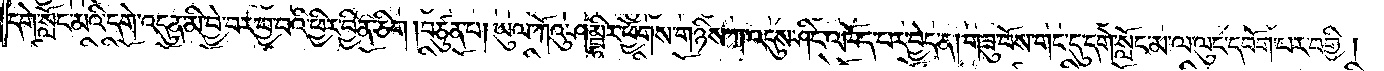དགེ་སློང་མའི་དགེ་འདུན་མི་བྱེ་བར་བྱ་བའི་ཕྱིར་བྱིན་ཅིག །བཙུན་པ། ཡུལ་ཀོའུ་ཤམྦྷིར་ཕྱོགས་གཉིས་ཀ་འདུས་ཤིང་འཁོད་པར་བྱེད་ན། གཟུ་བོས་གང་དུ་དགེ་སློང་མ་ལ་ལུང་དབོག་པར་བགྱི།
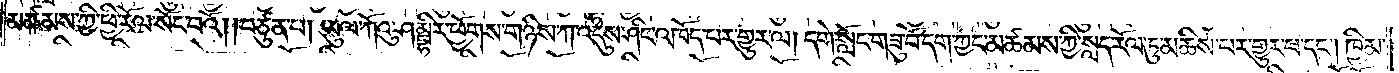མཚམས་ཀྱི་ཕྱི་རོལ་སོང་བའོ། །བཙུན་པ། ཡུལ་ཀོའུ་ཤམྦྷིར་ཕྱོགས་གཉིས་ཀ་འདུས་ཤིང་འཁོད་པར་གྱུར་ལ། དགེ་སློང་གཟུ་བོ་དག་ཀྱང་མཚམས་ཀྱི་སླད་རོལ་ཏུ་མཆིས་པར་གྱུར་བ་དང༌། ཁྱིམ་
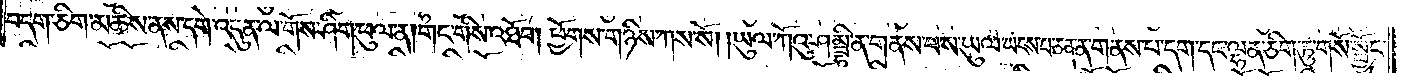བདག་ཅིག་མཆིས་ནས་དགེ་འདུན་ལ་གོས་ཤིག་ཕུལ་ན། གང་གིས་འཐོབ། ཕྱོགས་གཉིས་ཀས་སོ། །ཡུལ་ཀོའུ་ཤམྦྷི་ན་གནས་པས་ཡུལ་ཡངས་པ་ཅན་ན་གནས་པ་དག་དང་ལྷན་ཅིག་ཏུ་གསོ་སྦྱོང་
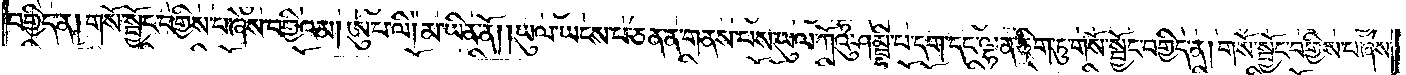བགྱིད་ན། གསོ་སྦྱོང་བགྱིས་པ་ཞེས་བགྱིའམ། ཨུ་པ་ལི། མ་ཡིན་ནོ། །ཡུལ་ཡངས་པ་ཅན་ན་གནས་པས་ཡུལ་ཀོའུ་ཤམྦྷི་པ་དག་དང་ལྷན་ཅིག་ཏུ་གསོ་སྦྱོང་བགྱིད་ན། གསོ་སྦྱོང་བགྱིས་པ་ཞེས་
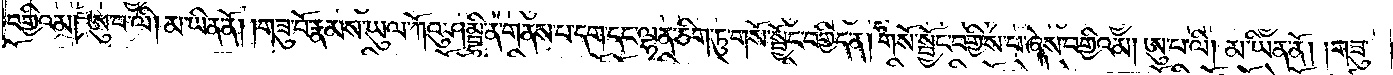བགྱིའམ། ཨུ་པ་ལི། མ་ཡིན་ནོ། །གཟུ་བོ་རྣམས་ཡུལ་ཀོའུ་ཤམྦྷི་ན་གནས་པ་དག་དང་ལྷན་ཅིག་ཏུ་གསོ་སྦྱོང་བགྱིད་ན། གསོ་སྦྱོང་བགྱིས་པ་ཞེས་བགྱིའམ། ཨུ་པ་ལི། མ་ཡིན་ནོ། །གཟུ་
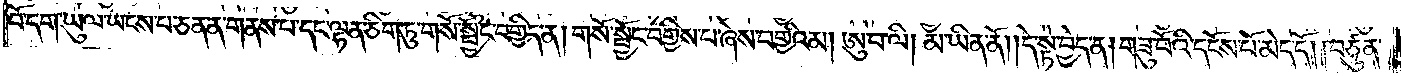བོ་དག་ཡུལ་ཡངས་པ་ཅན་ན་གནས་པ་དང་ལྷན་ཅིག་ཏུ་གསོ་སྦྱོང་བགྱིད་ན། གསོ་སྦྱོང་བགྱིས་པ་ཞེས་བགྱིའམ། ཨུ་པ་ལི། མ་ཡིན་ནོ། །དེ་སྟེ་བྱེད་ན། གཟུ་བོའི་དངོས་པོ་མེད་དོ། །བཙུན་
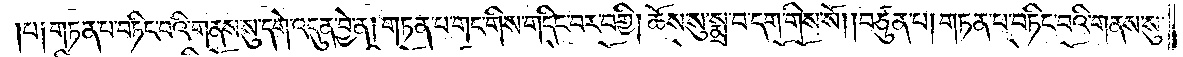པ༑ གཏན་པ་བཏིང་བའི་གནས་སུ་དགེ་འདུན་བྱེ་ན། གཏན་པ་གང་གིས་གདིང་བར་བགྱི། ཆོས་སུ་སྨྲ་བ་དག་གིས་སོ། །བཙུན་པ། གཏན་པ་བཏིང་བའི་གནས་སུ་
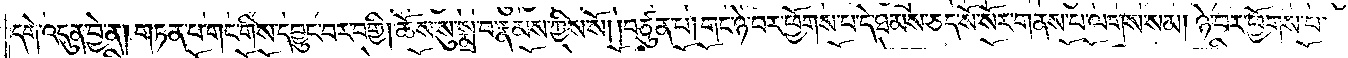དགེ་འདུན་བྱེ་ན། གཏན་པ་གང་གིས་དབྱུང་བར་བགྱི། ཆོས་སུ་སྨྲ་བ་རྣམས་ཀྱིས་སོ། །བཙུན་པ། གང་ཉེ་བར་ཕྱོགས་པ་དེ་ཐམས་ཅད་སོ་སོར་གནས་པ་ལགས་སམ། ཉེ་བར་ཕྱོགས་པ་
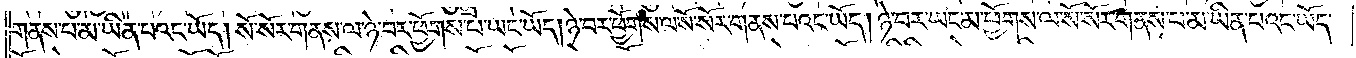གནས་པ་མ་ཡིན་པའང་ཡོད། སོ་སོར་གནས་ལ་ཉེ་བར་ཕྱོགས་པ་ཡང་ཡོད། ཉེ་བར་ཕྱོགས་ལ་སོ་སོར་གནས་པའང་ཡོད། ཉེ་བར་ཡང་མ་ཕྱོགས་ལ་སོ་སོར་གནས་པ་མ་ཡིན་པའང་ཡོད་
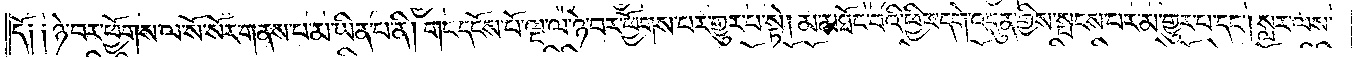དོ༑ ༑ཉེ་བར་ཕྱོགས་ལ་སོ་སོར་གནས་པ་མ་ཡིན་པ་ནི། གང་དངོས་པོ་ལྔ་ལ་ཉེ་བར་ཕྱོགས་པར་གྱུར་པ་སྟེ། མ་མཐོང་བའི་ཕྱིར་དགེ་འདུན་གྱིས་སྤངས་པར་མ་གྱུར་པ་དང༌། སླར་ལས་
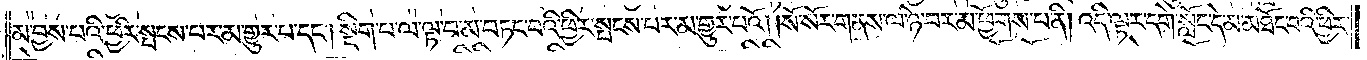མ་བྱས་པའི་ཕྱིར་སྤངས་པར་མ་གྱུར་པ་དང༌། སྡིག་པ་ལ་ལྟ་བ་མ་བཏང་བའི་ཕྱིར་སྤངས་པར་མ་གྱུར་པའོ། །སོ་སོར་གནས་ལ་ཉེ་བར་མ་ཕྱོགས་པ་ནི། འདི་ལྟར་དགེ་སློང་དེ་མ་མཐོང་བའི་ཕྱིར་
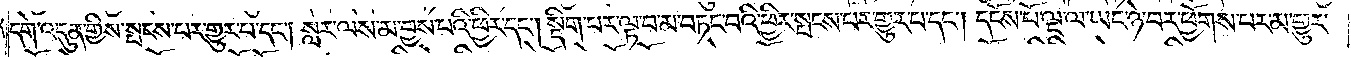དགེ་འདུན་གྱིས་སྤངས་པར་གྱུར་པ་དང༌། སླར་ལས་མ་བྱས་པའི་ཕྱིར་དང༌། སྡིག་པར་ལྟ་བ་མ་བཏང་བའི་ཕྱིར་སྤངས་པར་གྱུར་པ་དང༌། དངོས་པོ་ལྔ་ལ་ཡང་ཉེ་བར་ཕྱོགས་པར་མ་གྱུར་
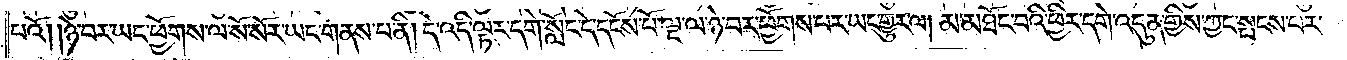པའོ། །ཉེ་བར་ཡང་ཕྱོགས་ལ་སོ་སོར་ཡང་གནས་པ་ནི། དེ་འདི་ལྟར་དགེ་སློང་དེ་དངོས་པོ་ལྔ་ལ་ཉེ་བར་ཕྱོགས་པར་ཡང་གྱུར་ལ། མ་མཐོང་བའི་ཕྱིར་དགེ་འདུན་གྱིས་ཀྱང་སྤངས་པར་
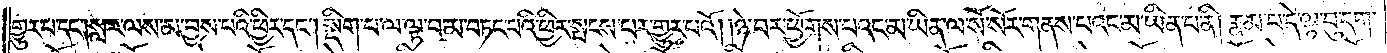གྱུར་པ་དང༌།སླར་ལས་མ་བྱས་པའི་ཕྱིར་དང༌། སྡིག་པ་ལ་ལྟ་བ་མ་བཏང་བའི་ཕྱིར་སྤངས་པར་གྱུར་པའོ། །ཉེ་བར་ཕྱོགས་པའང་མ་ཡིན་ལ་སོ་སོར་གནས་པའང་མ་ཡིན་པ་ནི། རྣམ་པ་དེ་ལྟ་བུ་དག་
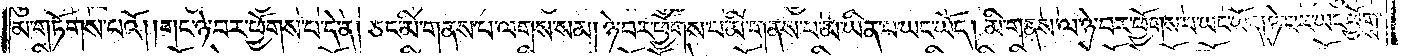མ་གཏོགས་པའོ། །གང་ཉེ་བར་ཕྱོགས་པ་དེ་ན། ཅང་མི་གནས་པ་ལགས་སམ། ཉེ་བར་ཕྱོགས་པ་མི་གནས་པ་མ་ཡིན་པ་ཡང་ཡོད། མི་གནས་ལ་ཉེ་བར་ཕྱོགས་པ་ཡང་ཡོད། ཉེ་བར་ཡང་ཕྱོགས་
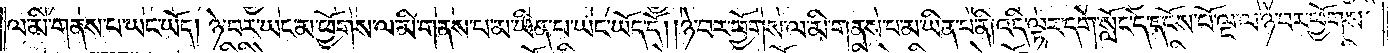ལ་མི་གནས་པ་ཡང་ཡོད། ཉེ་བར་ཡང་མ་ཕྱོགས་ལ་མི་གནས་པ་མ་ཡིན་པ་ཡང་ཡོད་དོ། །ཉེ་བར་ཕྱོགས་ལ་མི་གནས་པ་མ་ཡིན་པ་ནི། འདི་ལྟར་དགེ་སློང་དེ་དངོས་པོ་ལྔ་ལ་ཉེ་བར་ཕྱོགས་
